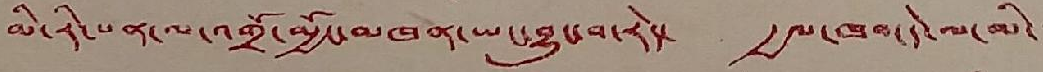མི་རི་པན་ལ་འགྲོ་མྱོང་མཁན་ཡང་བྱུང་བ་རེད་ རྒྱལ་ཁབ་དེ་ལ་མི་་
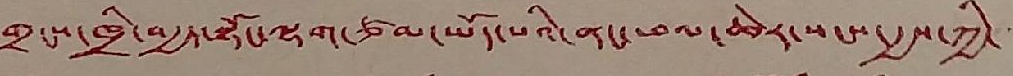གྲངས་ཁྲི་བརྒྱད་སྟོང་ལྷག་ཙམ་ཡོད་པའི་ནང་ཕལ་ཆེར་སངས་རྒྱས་ཀྱི་་་་་
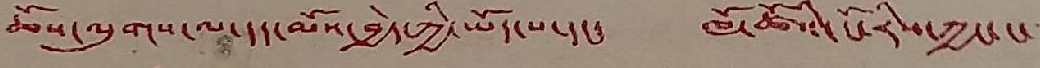ཆོས་ལུགས་ལ་དད་མོས་བྱེད་ཀྱི་ཡོད་པ་དང་ ཁོ་ཚོའི་ངོ་རིས་ཀྱང་ང་་་
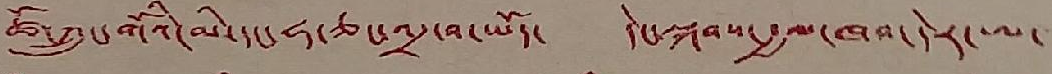ཚོ་ཀྲུང་གོའི་མི་དང་ཧ་ཅང་འདྲ་བ་ཡོད་ དེང་སྐབས་རྒྱལ་ཁབ་དེར་ལ་་
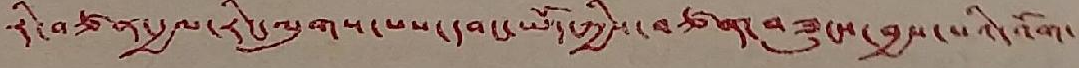རི་བཙན་རྒྱལ་རིང་ལུགས་པས་དབང་ཡོད་ཀྱིས་བཙན་བཟུངས་བྱས་པའི་འོག་
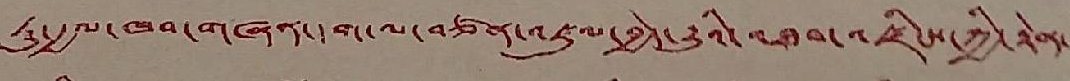ཏུ་རྒྱལ་ཁབ་གཞན་དག་ལ་བཙན་འཛུལ་བྱེད་རྒྱུའི་འཐབ་འཛིངས་ཀྱི་རྟེན་
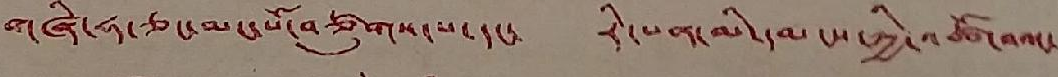གཞི་ཧ་ཅང་མང་པོ་བཙུགས་པ་དང་ རི་པན་མི་དམངས་ཀྱི་འཚོ་བའང་
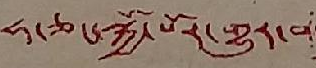ཧ་ཅང་སྐྱོ་པོར་འགྱུར་བ
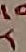ར
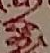གྱི་
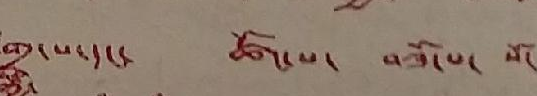གྲ་པ་དང་ ཚོང་པ་ བཟོ་པ་ སོ་
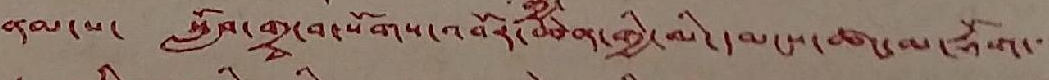ནམ་པ་ སློབ་གྲྭ་བ་སོགས་འབོར་ཆེན་གྱི་མི་དམངས་ཚང་མ་རྡོག་་་
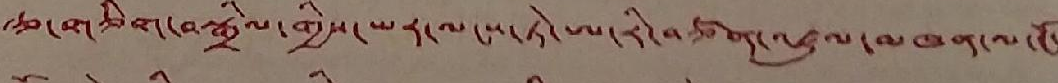རྩ་གཅིག་བསྒྲིལ་གྱིས་ཡར་ལངས་ཏེ་ཨ་རི་བཙན་འཛུལ་མཁན་ལ་ངོ་
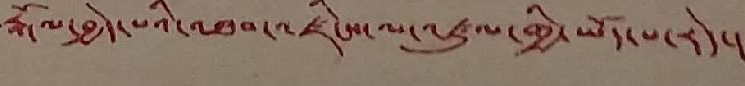རྒོལ་བྱེད་པའི་འཐབ་འཛིངས་ལ་འཛུལ་གྱི་ཡོད་པ་རེད་།
